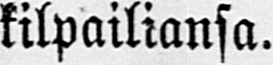kilpailiansa.
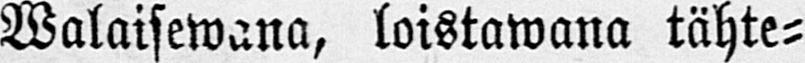Walaisewana, loistawana tähte-
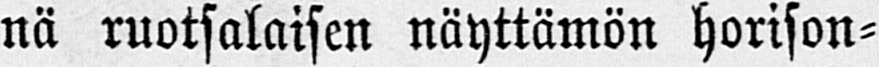nä ruotsalaisen näyttämön horison-
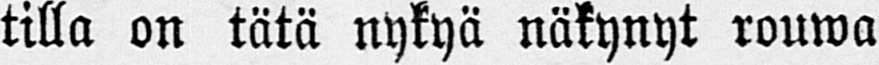tilla on tätä nykyä näkynyt rouwa
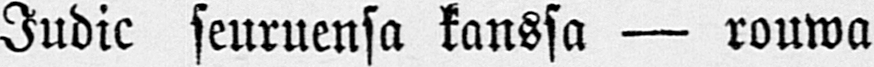Judic seuruensa kanssa — rouwa
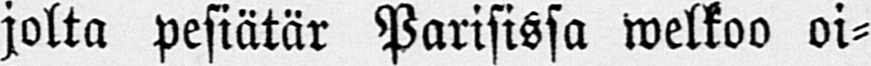jolta pesiätär Parisissa welkoo oi-
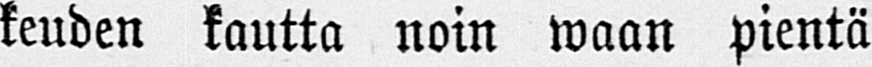keuden kautta noin waan pientä
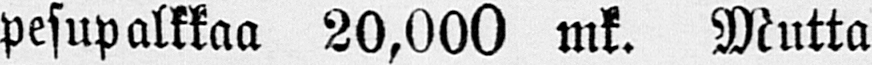pesupalkkaa 20,000 mk. Mutta
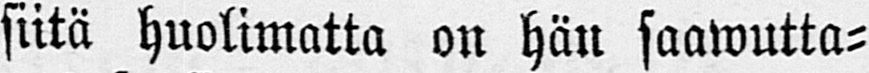siitä huolimatta on hän saawutta-
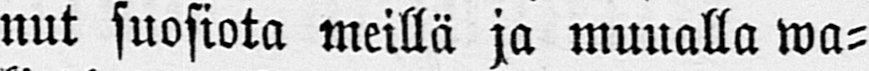nut suosiota meillä ja muualla wa-
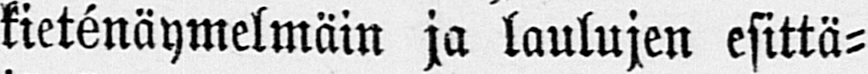kieténäymelmäin ja laulujen esittä-
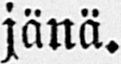jänä.
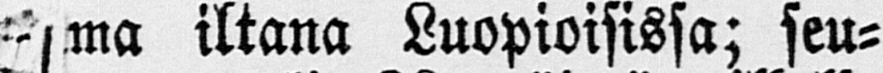ma iltana Luopioisissa; seu-
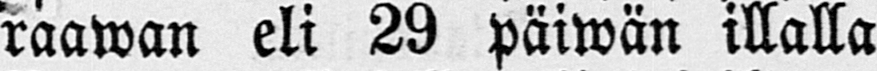raawan eli 29 päiwän illalla
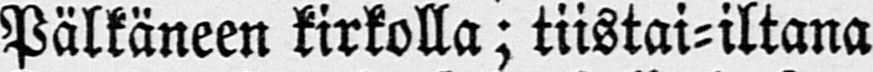Pälkäneen kirkolla; tiistai-iltana
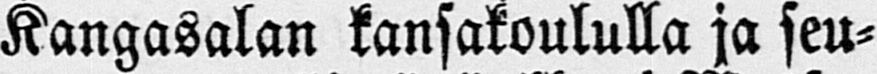Kangasalan kansakoululla ja seu-
